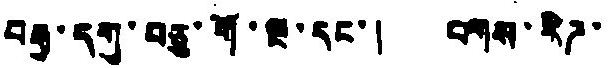བརྒྱ་དགུ་བཅུ་གོ་ལྔ་དང་། བགས་རིཌ་
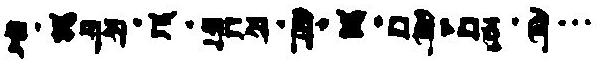སྣ་ཚོགས་ངོ་གྲངས་ཁྲི་ཚོ་བཞི་བཅུ་ཞེ་་་
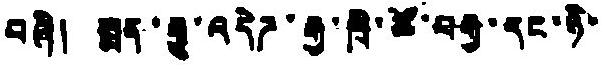བཞི། སྨན་རྒྱུ་འདེཌ་རྒྱ་ཁྲི་ཚོ་བརྒྱ་དང་ཉི་
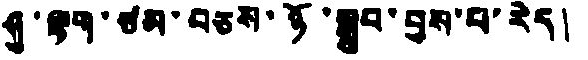ཤུ་ལྷག་ཚམ་བཅས་ཉོ་སྒྲུབ་བྱས་པ་རེད།
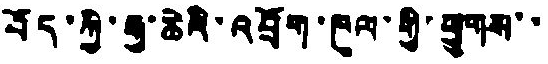བོད་ཀྱི་རྒྱ་ཆེའི་འབྲོག་ཁུལ་གྱི་ཕྱུགས་་
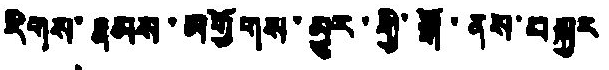རིགས་རྣམས་མགྱོགས་མྱུར་གྱི་སྒོ་ནས་བསྐྱར
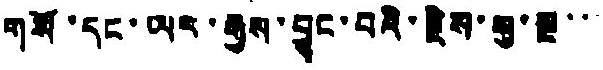གསོ་དང་ཡར་རྒྱས་བྱུང་བའི་རྗེས་སུ་སྔ་་་
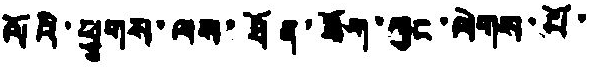ལོའི་ཕྱུགས་ལས་ཐོན་ཟོག་ཀྱང་ལེགས་པོ་
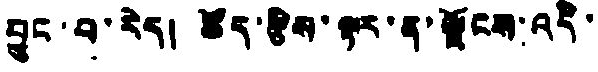བྱུང་བ་རེད། ཚོད་རྩིས་ལྟར་ན་ལྗོངས་འདི་
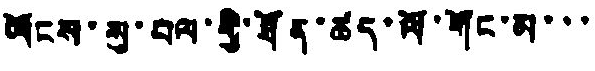ཡོངས་སུ་བལ་གྱི་ཐོན་ཚད་ལོ་གོང་མ་་་
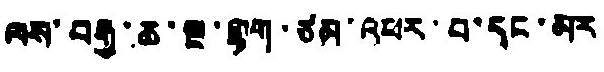ལས་བརྒྱ་ཆ་ལྔ་ལྷག་ཙམ་འཕར་བ་དང་མར
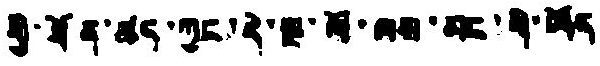གྱི་ཐོན་ཚད་ཀྱང་དེ་སྔ་ལོ་ལས་མང་གི་ཡོད
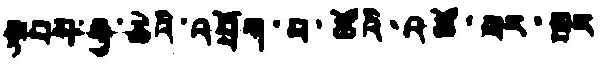སྟབས་རྒྱ་ཆེའི་འབྲོག་པ་ཚོའི་འཚོ་པར་སྔར
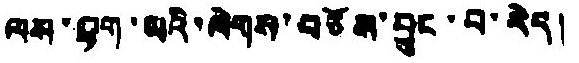ལས་ལྷག་པའི་ལེགས་བཅོས་བྱུང་བ་རེད།
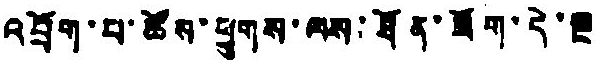འབྲོག་པ་ཚོས་ཕྱུགས་ལས་ཐོན་ཟོག་དེ་སྔ
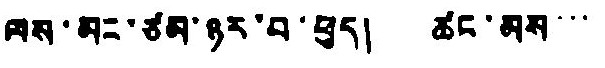ལས་མང་ཙམ་ཉར་བ་ཕུད། ཚང་མས་་་
